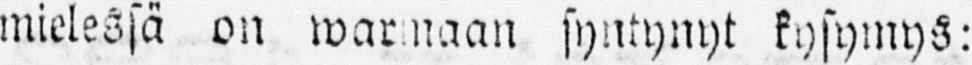mielessä on warmaan syntynyt kysymys:
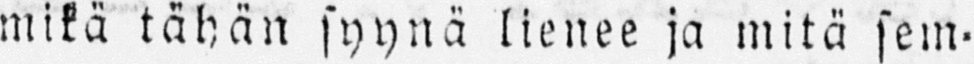mikä tähän syynä lienee ja mitä sem-
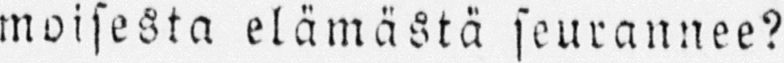moisesta elämästä seurannee?
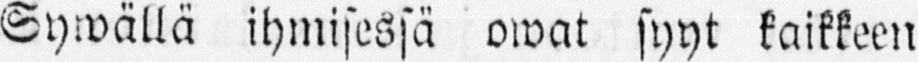Sywällä ihmisessä owat syyt kaikkeen
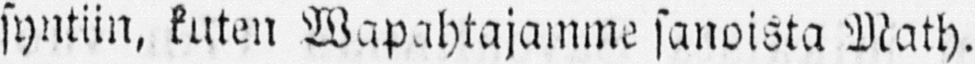syntiin, kuten Wapahtajamme sanoista Math.
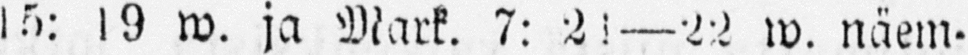15: 19 w. ja Mark. 7: 21—22 w. näem-
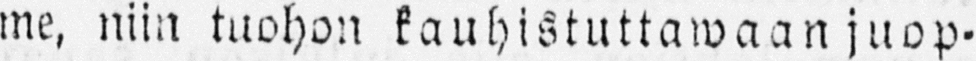me, niin tuohon kauhistuttawaan juop-
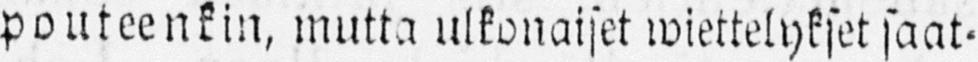pouteenkin, mutta ulkonaiset wiettelykset saat-
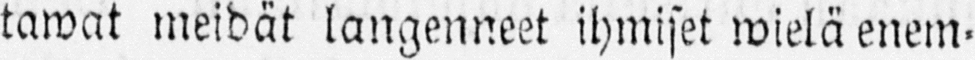tawat meidät langenneet ihmiset wielä enem-
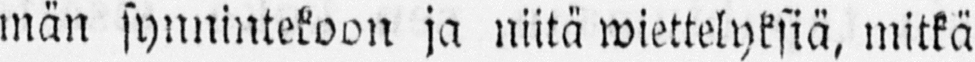män synnintekoon ja niitä wiettelyksiä, mitkä
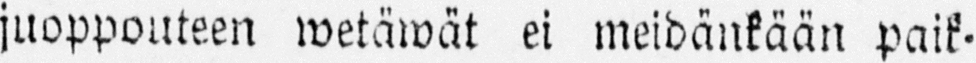juoppouteen wetäwät ei meidänkään paik-
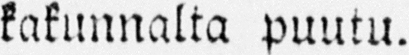kakunnalta puutu.
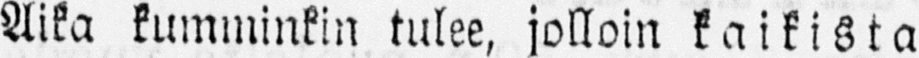Aika kumminkin tulee, jolloin kaikista
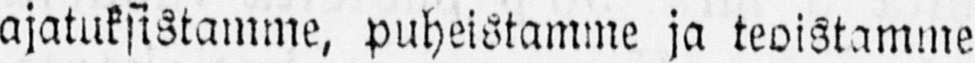ajatuksistamme, puheistamme ja teoistamme
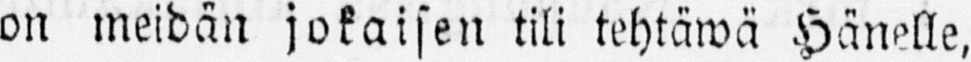on meidän jokaisen tili tehtäwä Hänelle,
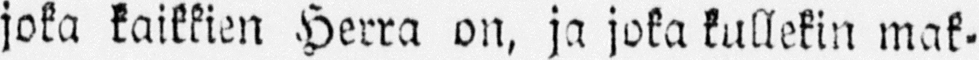joka kaikkien Herra on, ja joka kullekin mak-
